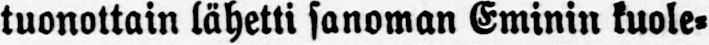tuonottain lähetti sanoman Eminin kuole-
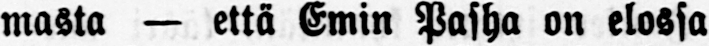masta — että Emin Pasha on elossa
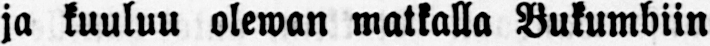ja kuuluu olewan matkalla Bukumbiin
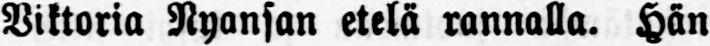Viktoria Nyansan etelä rannalla. Hän
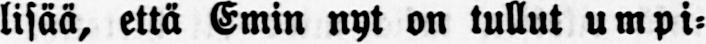lisää, että Emin nyt on tullut umpi-
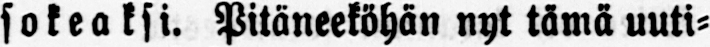sokeaksi. Pitäneeköhän nyt tämä uuti-
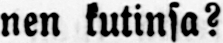nen kutinsa?
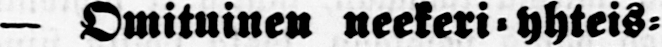— Omituinen neekeri-yhteis-
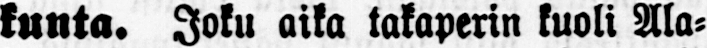kunta. Joku aika takaperin kuoli Ala-
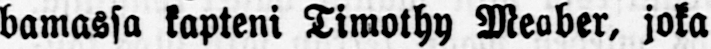bamassa kapteni Timothy Meaber, joka
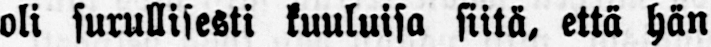oli surullisesti kuuluisa siitä, että hän
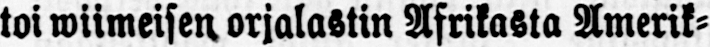toi wiimeisen orjalastin Afrikasta Amerik-
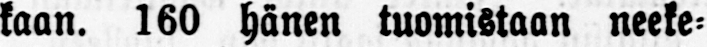kaan. 160 hänen tuomistaan neeke-
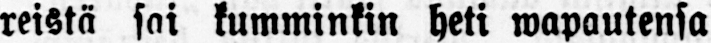reistä sai kumminkin heti wapautensa
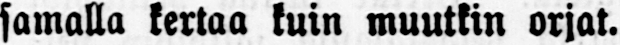samalla kertaa kuin muutkin orjat.
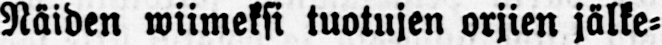Näiden wiimeksi tuotujen orjien jälke-
